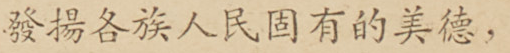發揚各族人民固有的美德，
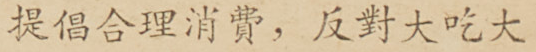提倡合理消費，反對大吃大
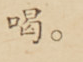喝。
